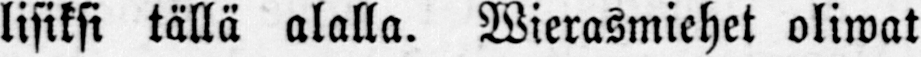lisiksi tällä alalla. Wierasmiehet oliwat
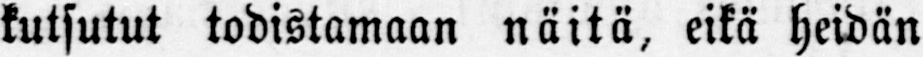kutsutut todistamaan näitä, eikä heidän
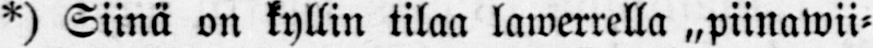*) Siinä on kyllin tilaa lawerrella „piinawii-
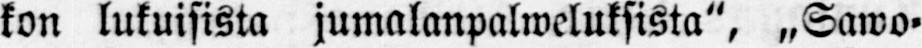kon lukuisista jumalanpalweluksista", „Sawo-
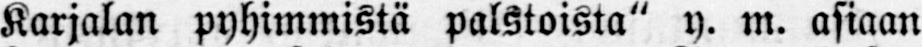Karjalan pyhimmistä palstoista" y. m. asiaan
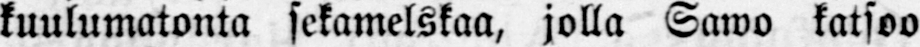kuulumatonta sekamelskaa, jolla Sawo katsoo
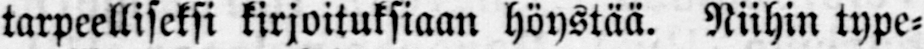tarpeelliseksi kirjoituksiaan höystää. Niihin type-
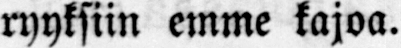ryyksiin emme kajoa.
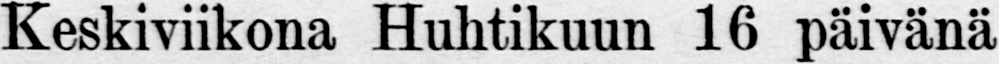Keskiviikona Huhtikuuu 16 päivänä.
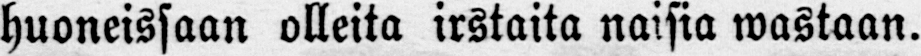huoneissaan olleita irstaita naisia wastaan.
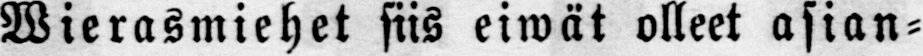Wierasmiehet siis eiwät olleet asian-
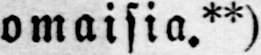omaisia.**)
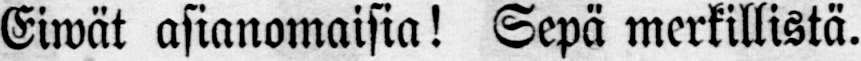Eiwät asianomaisia! Sepä merkillistä.
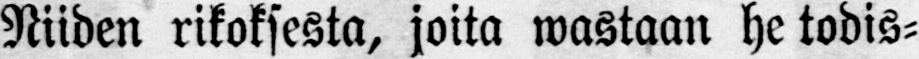Niiden rikoksesta, joita wastaan he todis-
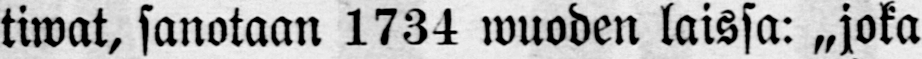tiwat, sanotaan 1734 wuoden laissa: „joka
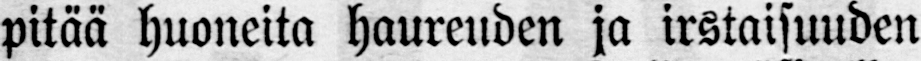pitää huoneita haureuden ja irstaisuuden
